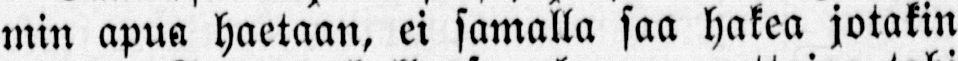min apua haetaan, ei samalla saa hakea jotakin
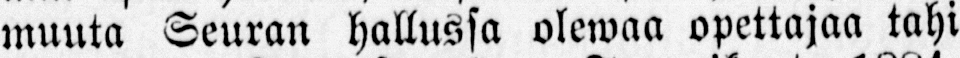muuta Seuran hallussa olewaa opettajaa tahi
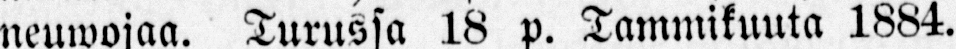neuwojaa. Turussa 18 p. Tammikuuta 1884.
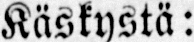Käskystä:
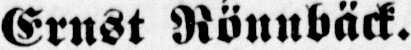Ernst Rönnbäck.
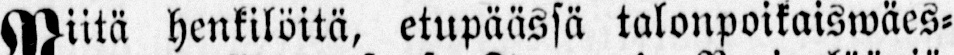Niitä henkilöitä, etupäässä talonpoikaiswäes-
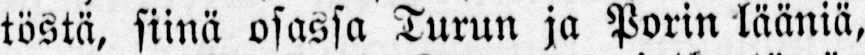töstä, siinä osassa Turun ja Porin lääniä,
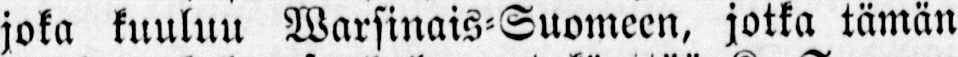joka kuuluu Warsinais-Suomeen, jotka tämän
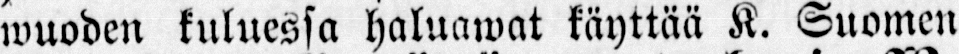wuoden kuluessa haluawat käyttää K. Suomen
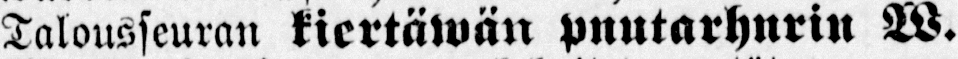Talousseuran kiertäwän puutarhurin W.
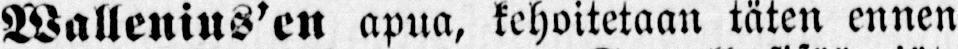Wallenins ’ en apua, kehoitetaan täten ennen
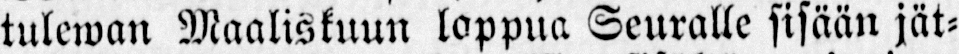tulewan Maaliskuun loppua Seuralle sisään jät-
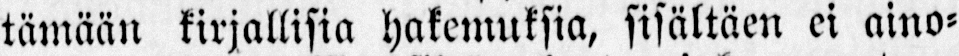tämään kirjallisia hakemuksia, sisältäen ei aino-
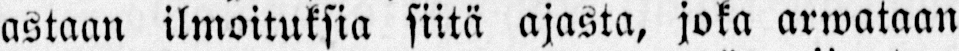astaan ilmoituksia siitä ajasta, joka arwataan
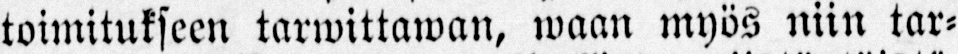toimitukseen tarwittawan, waan myös niin tar-
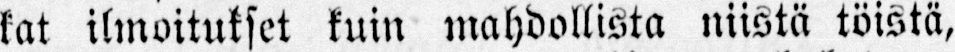kat ilmoitukset kuin mahdollista niistä töistä,
